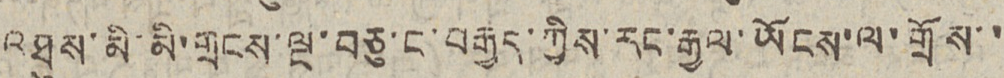འཐུས་མི་མི་གྲངས་ལྔ་བཅུ་ང་བརྒྱད་ཀྱིས་རང་རྒྱལ་ཡོངས་ལ་གྲོས་་
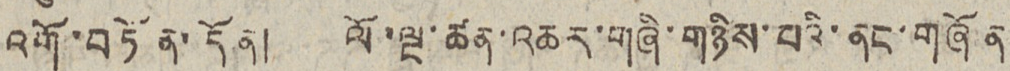འགོ་བཏོན་དོན། ལོ་ལྔ་ཚན་འཆར་གཞི་གཉིས་པའི་ནང་གཞོན
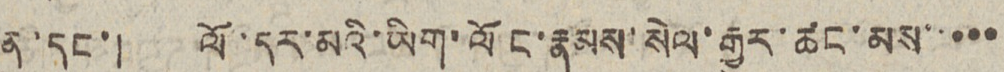ནུ་དང་། ལོ་དར་མའི་ཡིག་ལོང་རྣམས་སེལ་རྒྱུར་ཚང་མས་་་་་
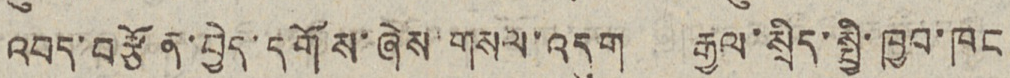འབད་བརྩོན་བྱེད་དགོས་ཞེས་གསལ་འདུག རྒྱལ་སྲིད་སྤྱི་ཁྱབ་ཁང
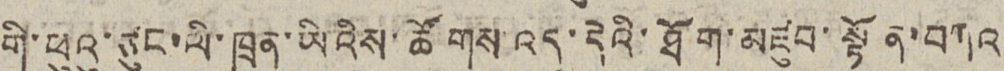གི་ཕུའུ་ཙུང་ལི་ཁྲན་ཡིའིས་ཚགོས་འདུ་དེའི་ཐོག་མཛུབ་སྟོན་བཀའ
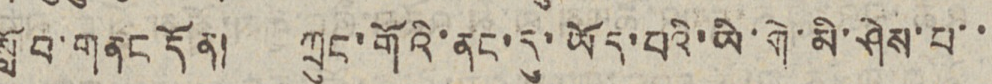སློབ་གནང དོན། ཀྲུང་གོའི་ནང་དུ་ཡོད་པའི་ཡི་གེ་མི་ཤེས་པ་་
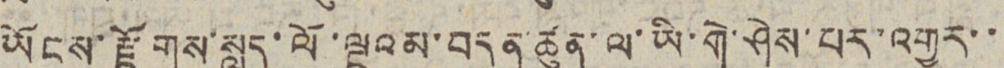ཡོངས་རྫོགས་སླད་ལོ་ལྔའམ་བདུན་ཚུན་ལ་ཡི་གེ་ཤེས་པར་འགྱུར་་
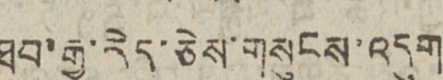ཐུབ་རྒྱུ་རེད་ཅེས་གསུངས་འདུག
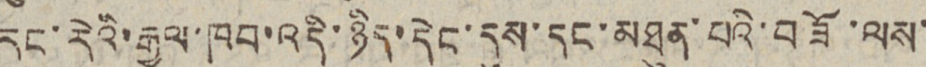རང་རེའི་རྒྱལ་ཁབ་འདི་ཉིད་དེང་དུས་དང་མཐུན་པའི་བཟོ་ལས་
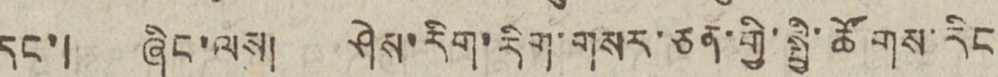དང་། ཞིང་ལས། ཤེས་རིག་རིག་གསར་ཅན་གྱི་སྤྱི་ཚོགས་རིང
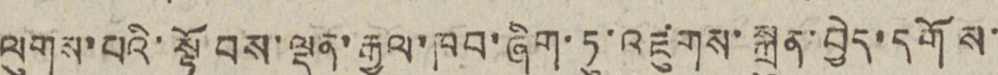ལུགས་པའི་སྟོབས་ལྡན་རྒྱལ་ཁབ་ཞིག་ཏུ་འཛུགས་སྐྲུན་བྱེད་དགོས་
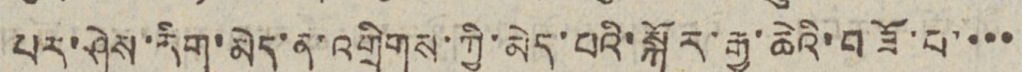པར་ཤེས་རིག་མེད་ན་འགྲིགས་ཀྱི་མེད་པའི་སྐོར་རྒྱ་ཆེའི་བཟོ་པ་་་་
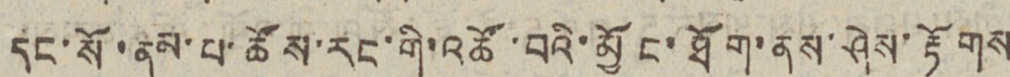དང་སོ་ནམ་པ་ཚོས་རང་གི་འཚོ་བའི་མྱོང་ཐོག་ནས་ཤེས་རྟོགས
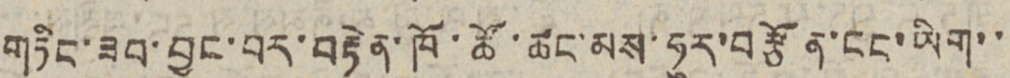གཏིང་ཟབ་བྱུང་བར་བརྟེན་ཁོ་ཚོ་ཚང་མས་ཧུར་བརྩོན་ངང་ཡིག་་
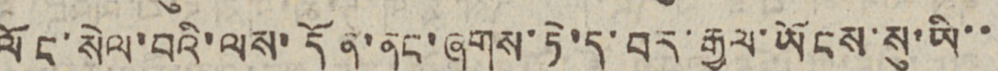ལོང་སེལ་བའི་ལས་དོན་ནང་ཞུགས་ཏེ་ད་བར་རྒྱལ་ཡོངས་སུ་ཡི་་
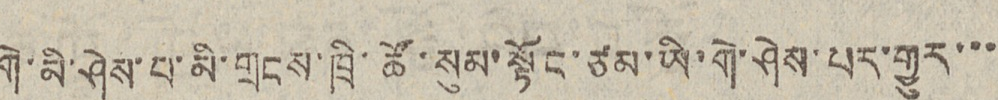གེ་མི་ཤེས་པ་མི་གྲངས་ཁྲི་ཚོ་སུམ་སྟོང་ཙམ་ཡི་གེ་ཤེས་པར་གྱུར་་་
